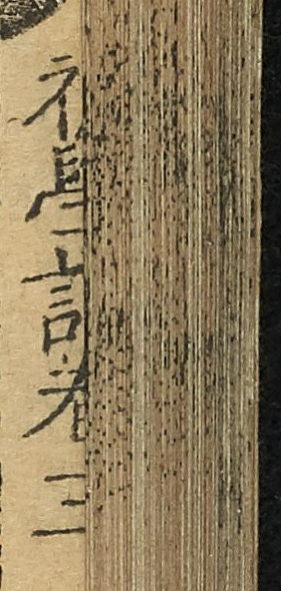初學記卷三
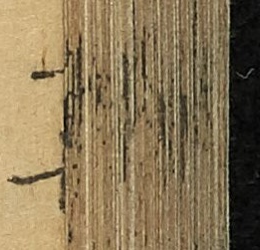十七
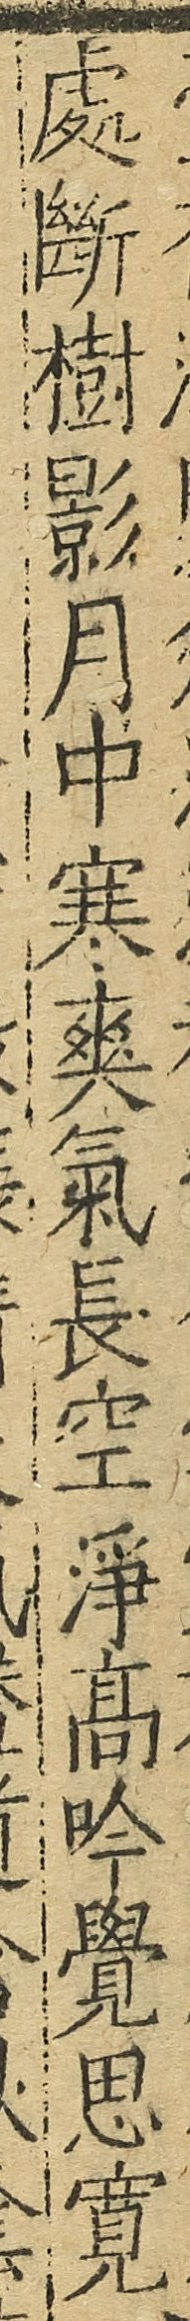處斷樹影月中寒爽氣長空淨高吟覺思寬
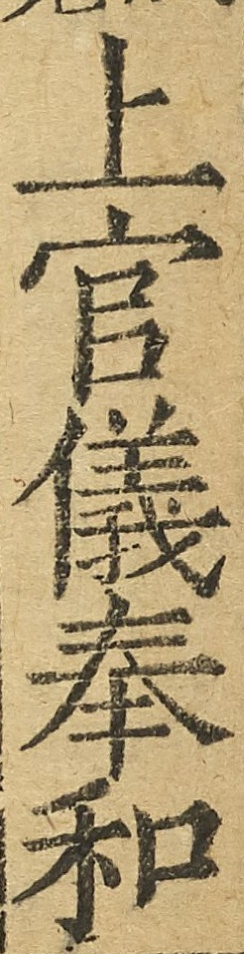上官儀奉和
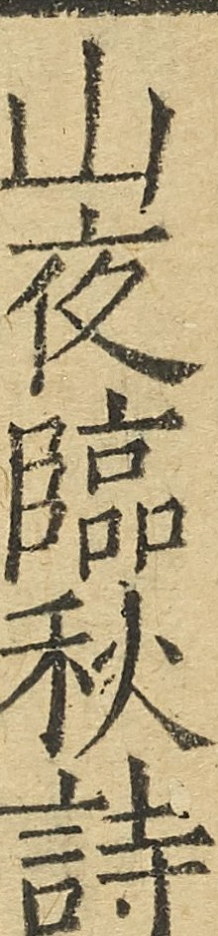山夜臨秋詩
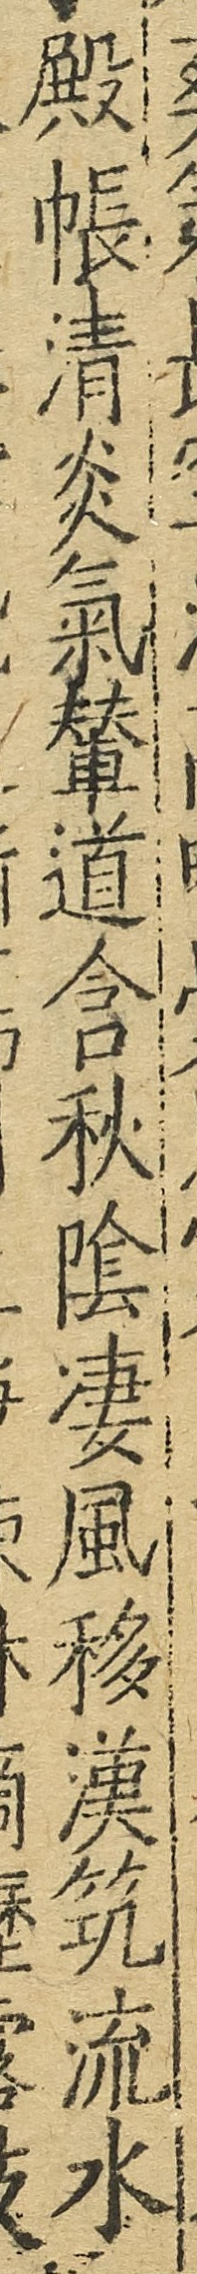殿帳清炎氣輦道含秋陰淒風移漢筑流水
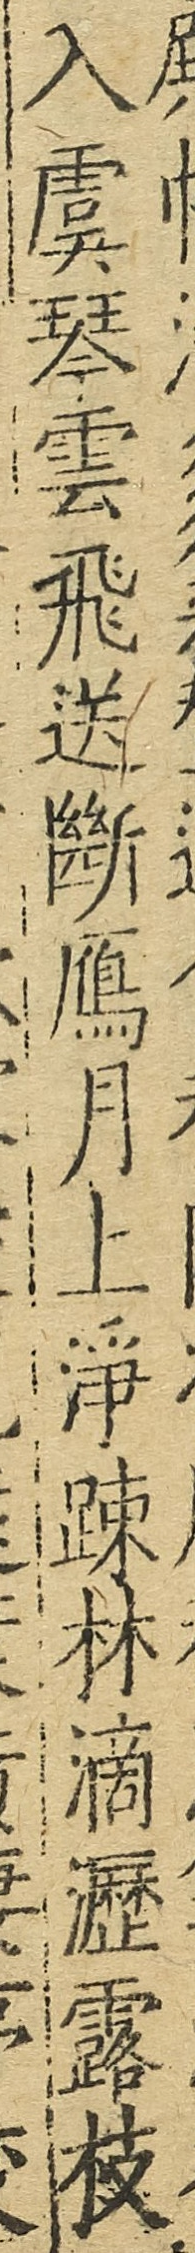入虞琴雲飛送斷鴈月上淨疎林滴瀝露枝
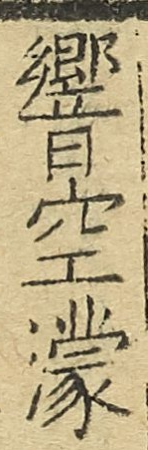響空濛
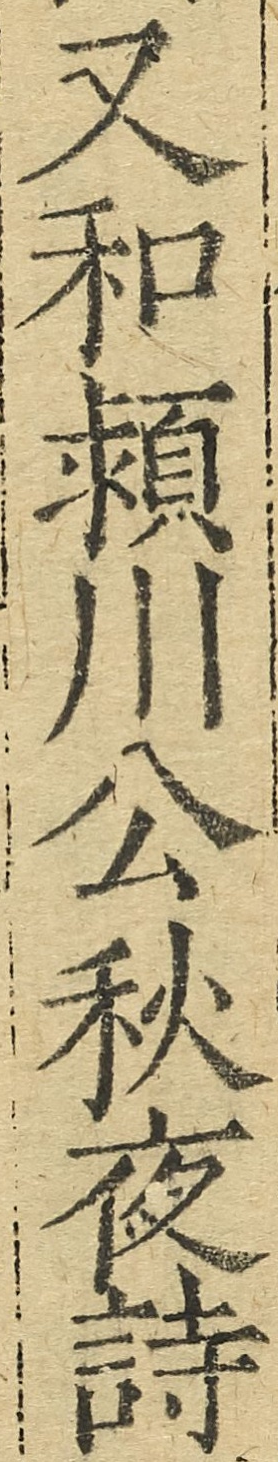又和潁川公秋夜詩
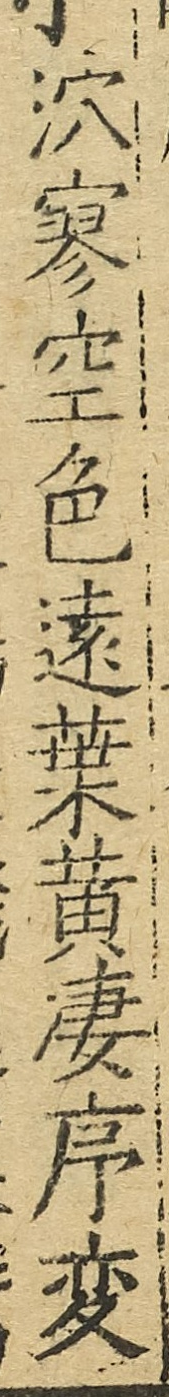泬寥空色遠葉黃淒序變
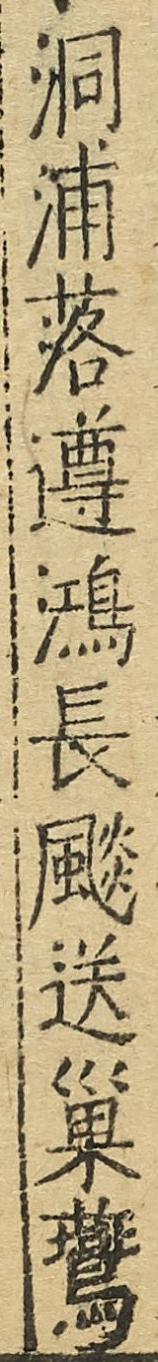洞浦落遵鴻長颷送巢鷰
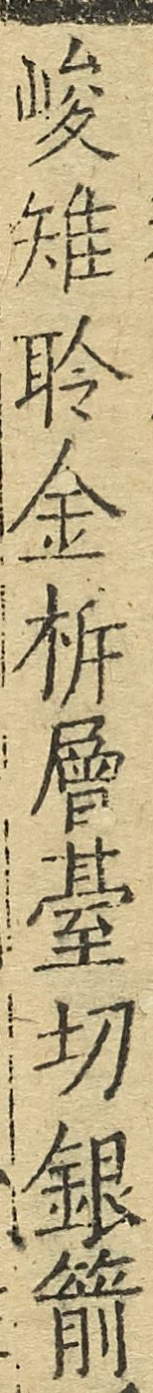峻雉聆金柝層臺切銀箭
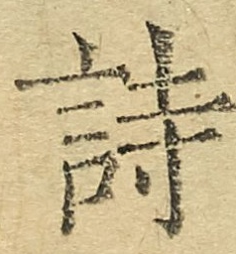詩
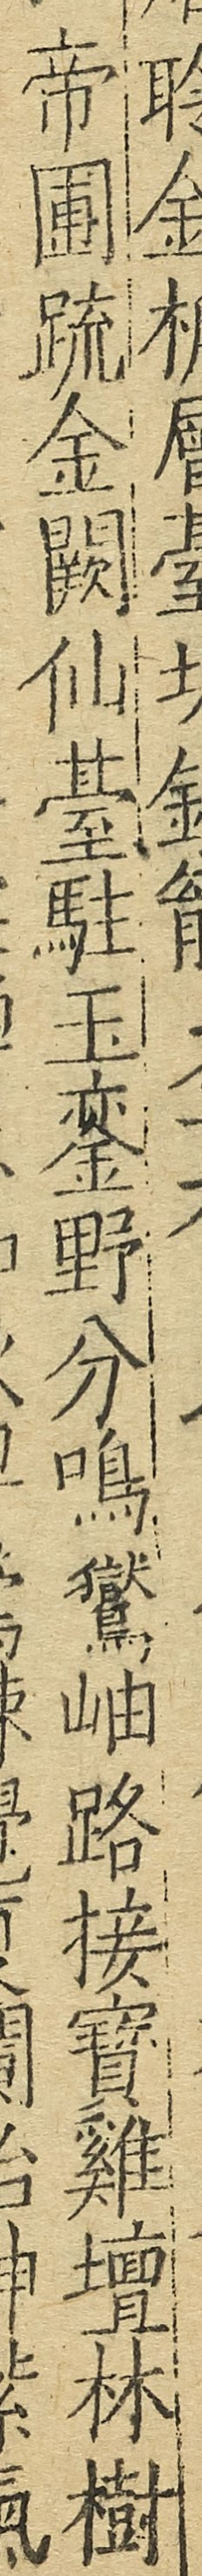帝圃疏金闕仙臺駐玉鑾野分鳴鸑岫路接寶雞壇林樹
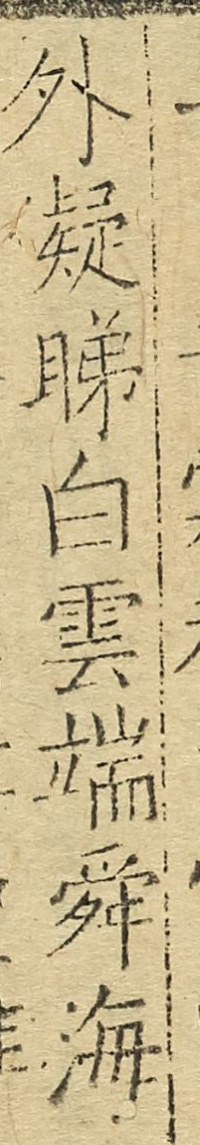外凝睇白雲端舜海
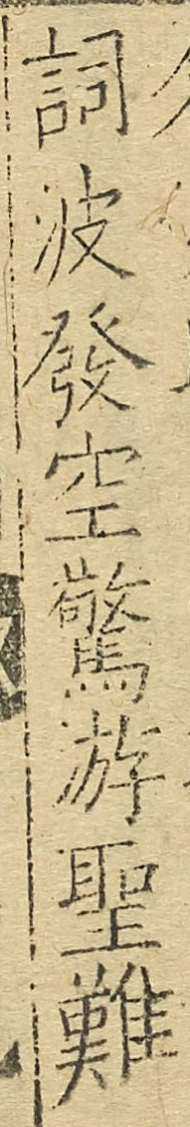詞波發空驚游聖難
